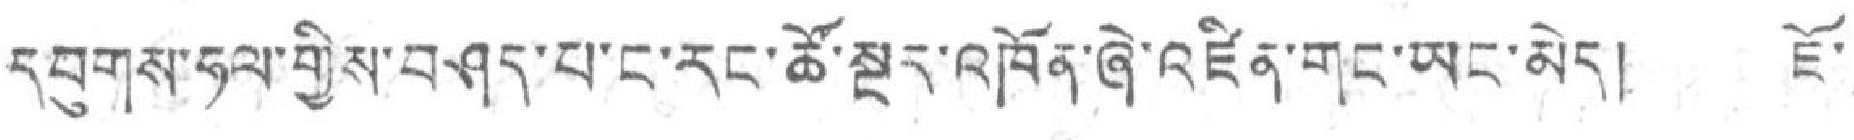དབུགས་ཧལ་གྱིས་བཤད་པ་ང་རང་ཚོ་སྔར་འཁོན་ཞེ་འཛིན་གང་ཡང་མེད། ཇོ་
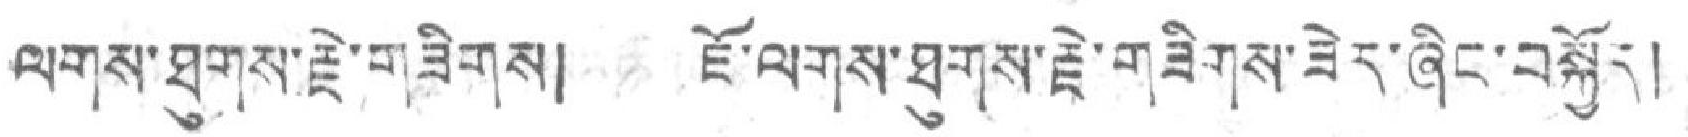ལགས་ཐུགས་རྗེ་གཟིགས། ཇོ་ལགས་ཐུགས་རྗེ་གཟིགས་ཟེར་ཞིང་བསྐྱོར།
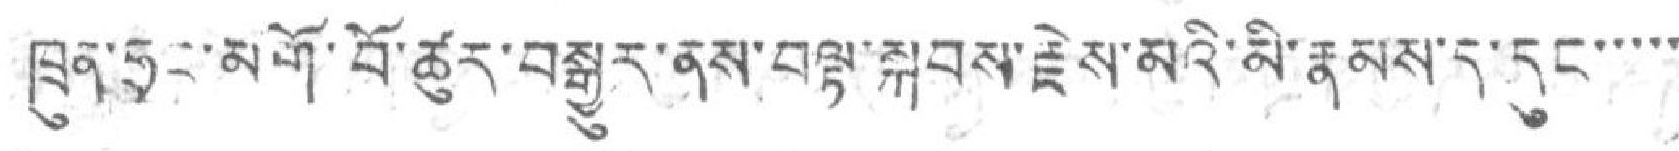ཁྲུན་ཧྲང་མགོ་བོ་ཚུར་བསྒྱུར་ནས་བལྟ་སྐབས་རྗེས་མའི་མི་རྣམས་དུ་དང་་་་་
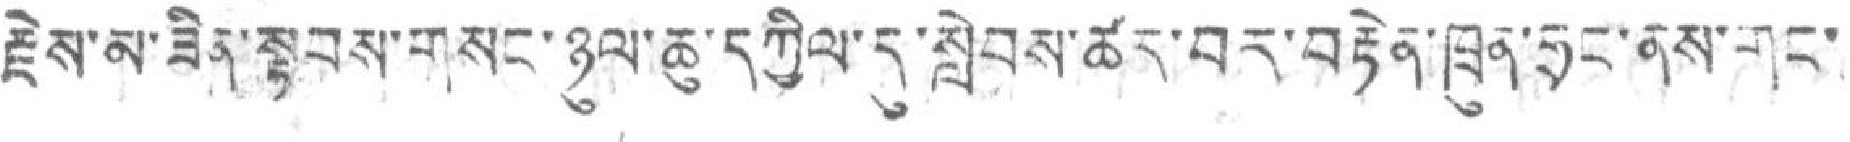རྗེས་མ་ཟེན་སྟབས་གསང་ཉུལ་ཆུ་དཀྱིལ་དུ་སླེབས་ཚར་བར་བརྟེན་ཁྲུན་ཧྲང་ནས་གང་
